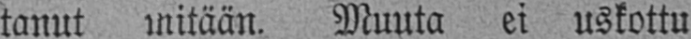tanut mitään. Muuta ei uskottu
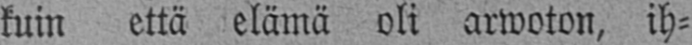kuin että elämä oli arwoton, ih-
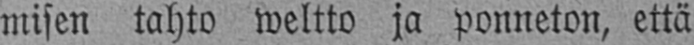misen tahto weltto ja ponneton, että
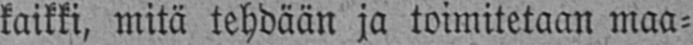kaikki, mitä tehdään ja toimitetaan maa-
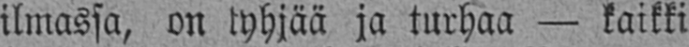ilmassa, on tyhjää ja turhaa — kaikki
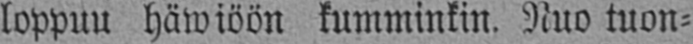loppuu häwiöön kumminkin. Nuo tuon-
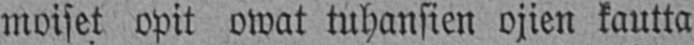moiset opit owat tuhansien ojien kautta
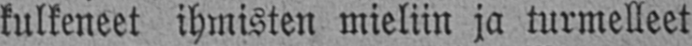kulkeneet ihmisten mieliin ja turmelleet
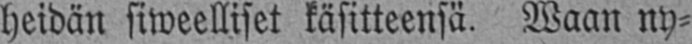heidän siweelliset käsitteensä. Waan ny-
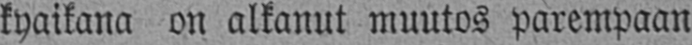kyaikana on alkanut muutos parempaan
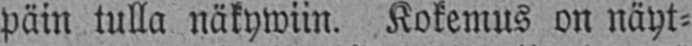päin tulla näkywiin. Kokemus on näyt-
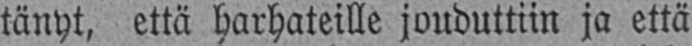tänyt, että harhateille jouduttiin ja että
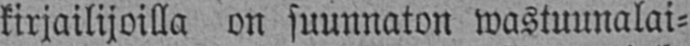kirjailijoilla on suunnaton wastuunalai-
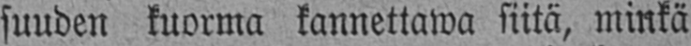suuden kuorma kannettawa siitä, minkä
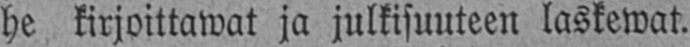he kirjoittawat ja julkisuuteen laskewat.
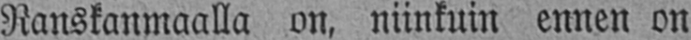Ranskanmaalla on, niinkuin ennen on
